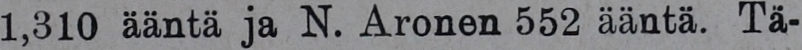1,310 ääntä ja N. Aronen 552 ääntä. Tä-
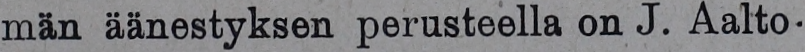män äänestyksen perusteella on J. Aalto-
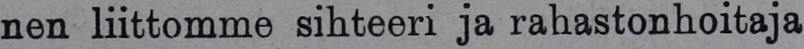nen liittomme sihteeri ja rahastonhoitaja
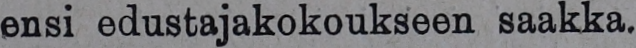ensi edustajakokoukseen saakka.
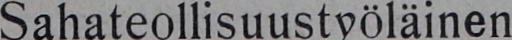Sahateollisuustyöläinen
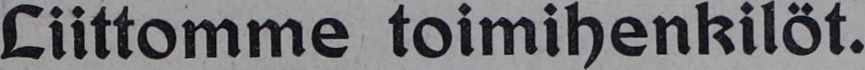Liittomme toimihenkilöt.
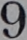9
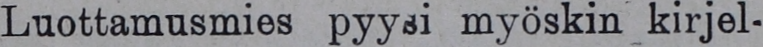Luottamusmies pyysi myöskin kirjel-
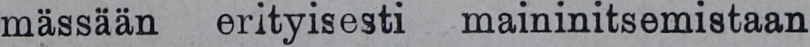mässään erityisesti maininitsemistaan
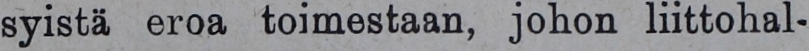syistä eroa toimestaan, johon liittohal-
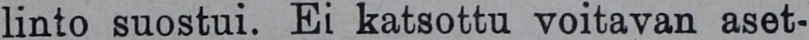linto suostui. Ei katsottu voitavan aset-
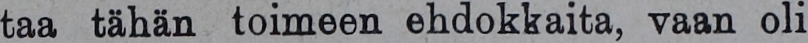taa tähän toimeen ehdokkaita, vaan oli
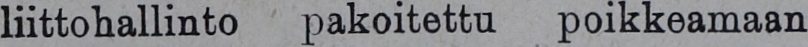liittohallinto pakoitettu poikkeamaan
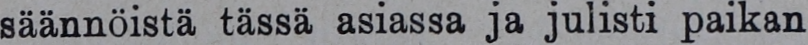säännöistä tässä asiassa ja julisti paikan
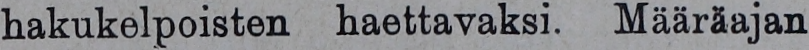hakukelpoisten haettavaksi. Määräajan
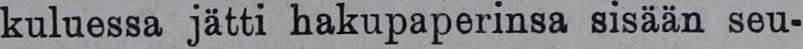kuluessa jätti hakupaperinsa sisään seu-
